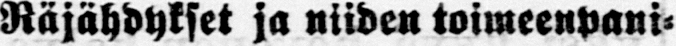Räjähdykset ja niiden toimeenpani-
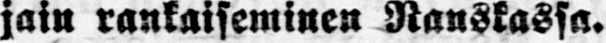jain rankaiseminen Ranskassa.
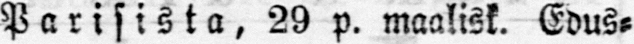Parisista, 29 p. maalisk. Edus-
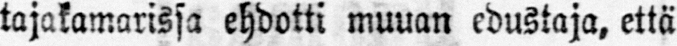tajakamorissa ehdotti muuan edustaja, että
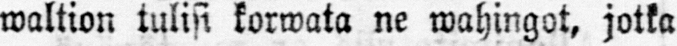waltion tulisi korwata ne wahingot, jotka
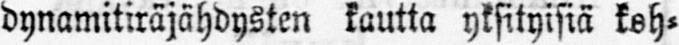dynamitiräjähdysten kautta yksityisiä koh-
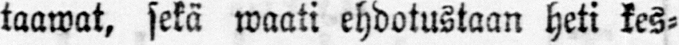taawat, sekä waati ehdotustaan heti kes-
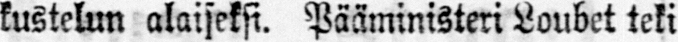kustelun alaiseksi. Pääministeri Loubet teki
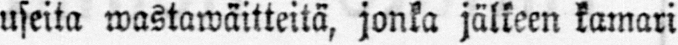useita wastawäitteitä, jonka jälkeen kamari
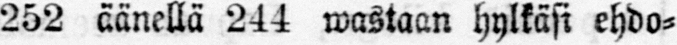252 äänellä 244 wastaan hylkäsi ehdo-
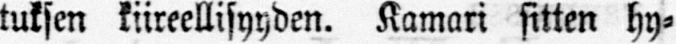tuksen kiireellisyyden. Kamari sitten hy-
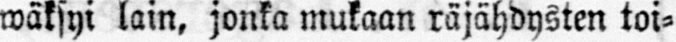wäksyi lain, jonka mukaan räjähdysten toi-
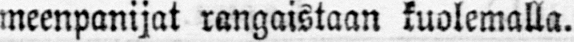meenpanijat rangaistaan kuolemalla.
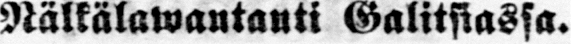Nälkälawantauti Galitsiassa.
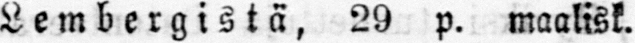Lembergistä, 29 p. maalisk.
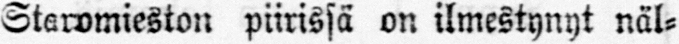Staromieston piirissä on ilmestynyt näl-
